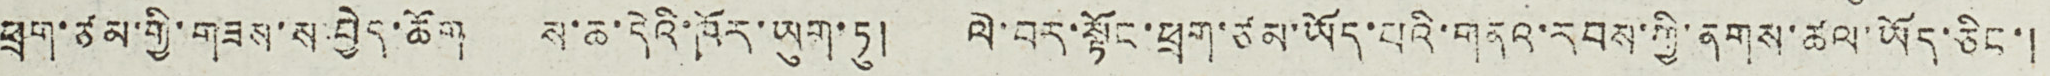ཕྲག་ཙམ་གྱི་གཟས་ས་བྱེད་ཆོག ས་ཆ་དེའི་ཁོར་ཡུག་ཏུ། ལེ་བར་སྟོང་ཕྲག་ཙམ་ཡོད་པའི་གནའ་རབས་ཀྱི་ནགས་ཚལ་ཡོད་ཅིང་།
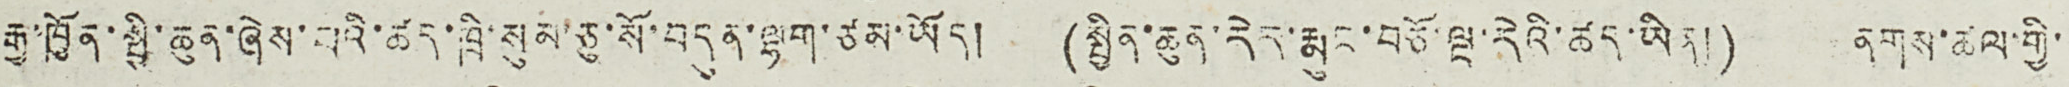རྒྱ་ཁྱོན་སྤྱི་ཆུན་ཞེས་པའི་ཚད་ཁྲི་སུམ་ཅུ་སོ་བདུན་ལྷག་ཙམ་ཡོད། (སྤྱིན་ཆུན་རེར་རྨུང་བཅོ་ལྔ་རེའི་ཚད་ཡིན།) ནགས་ཚལ་གྱི་
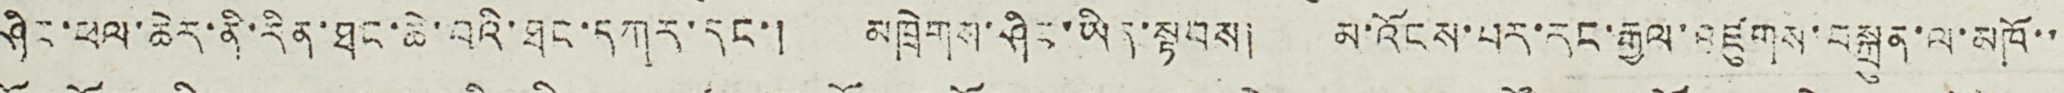ཤིང་ཕལ་ཆེར་ནི་རིན་ཐང་ཆེ་བའི་ཐང་དཀར་དང་། མཁྲེགས་ཤིང་ཡིན་སྟབས། མ་འོངས་པར་རང་རྒྱལ་འཛུགས་བསྐྲུན་ལ་མཁོ་་
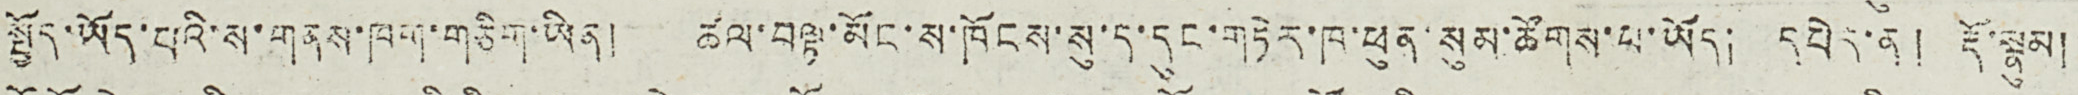སྤྱོད་ཡོད་པའི་ས་གནས་ཁག་གཅིག་ཡིན། ཚལ་བལྟ་མོང་ས་ཁོངས་སུ་ད་དུང་གཏེར་ཁ་ཕུན་སུམ་ཚོགས་པ་ཡོད། དཔེར་ན། རྡོ་སྣུམ།
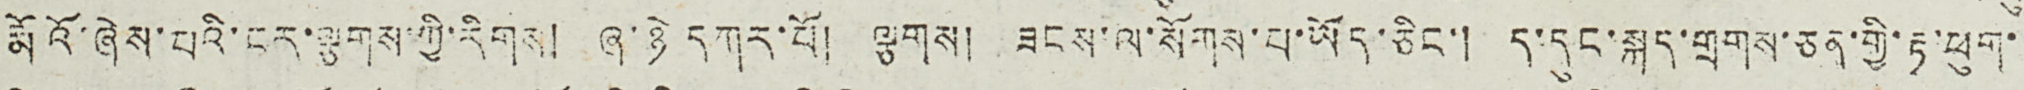རྨོའོ་ཞེས་པའི་ངར་ལྕགས་ཀྱི་རིགས། ཞ་ཉེ དཀར་པོ། ལྕགས། ཟངས་ལ་སོགས་པ་ཡོད་ཅིང་། ད་དུང་སྐད་གྲགས་ཅན་གྱི་རྟ་ཕུག་
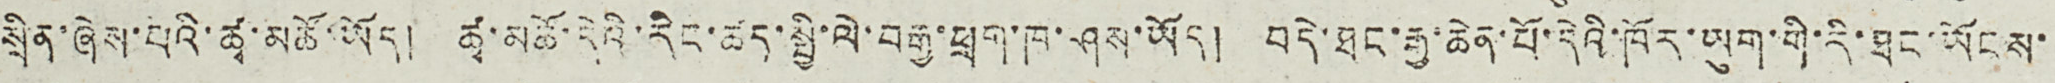སྲིན་ཞེས་པའི་ཚྭ་མཚོ་ཡོད། ཚྭ་མཆོ་དེའི་རིང་ཚད་སྤྱི་ལེ་བརྒྱ་ཕྲག་ཁ་ཤས་ཡོད། བདེ་ཐང་རྒྱ་ཆེན་པོ་དེའི་ཁོར་ཡུག་གི་རི་ཐང་ཡོངས་
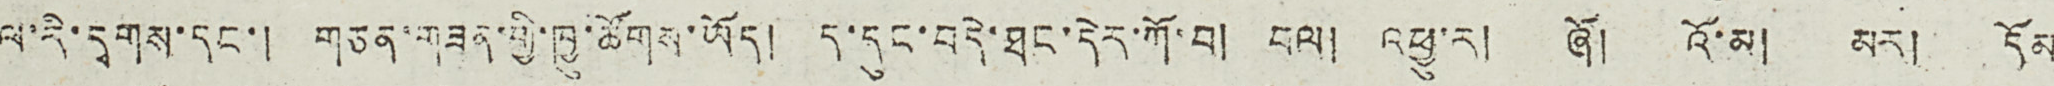ལ་རི་དྭགས་དང་། གཅན་གཟན་གྱི་ཁྱུ་ཚོགས་ཡོད། ད་དུང་བདེ་ཐང་དེར་ཀོ་བ། བལ། འཕྱུ་ར། ཞོ། འོ་མ། མར། དོམ
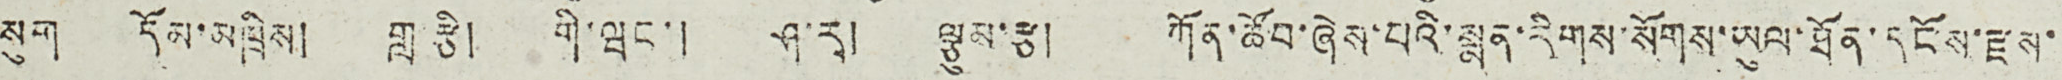སུག དོམ་མཁྲིས། གླ རྩི། གི་ཝང་། ཤ་རྭ། ལྕུམ་རྩ། ཀོན་ཚོབ་ཞེས་པའི་སྨན་རིགས་སོགས་ཡུལ་ཐོན་དངོས་རྫས་
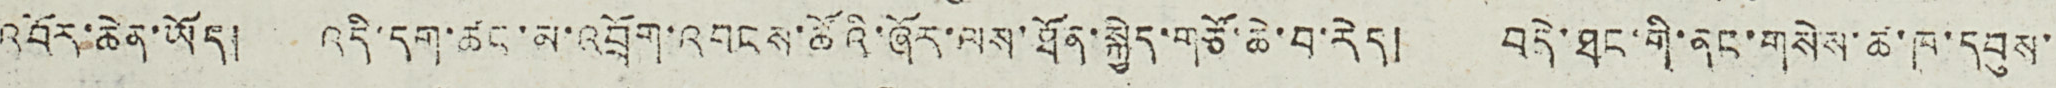འབོར་ཆེན་ཡོད། འདི་དག་ཚང་མ་འབྲོག་འབངས་ཚོའི་ཞོར་ལས་ཐོན་སྐྱེད་གཙོ་ཆེ་བ་རེད། བདེ་ཐང་གི་ནང་གསེས་ཚ་ཁ་དབུས་
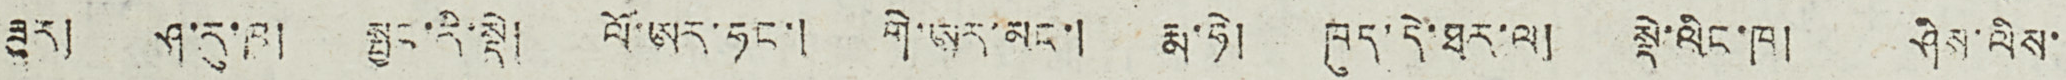ཟུར། ཤ་རུ་ཁ། སྦྱང་རི་སྡེ། ལོ་ཨར་ཧང་། གི་ཨར་མང་། རྨ་ཧེ། ཁུད་དེ་ཐར་ལ། སྡེ་ལིང་ཁ། ཤིས་ལིས་
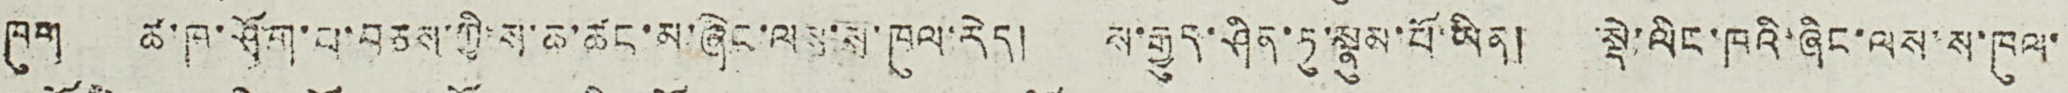ཁུག ཚ་ཁ་ཤོག་པ་བཅས་ཀྱི་ས་ཆ་ཚང་མ་ཞིང་ལས་ས་ཁུལ་རེད། ས་རྒྱུད་ཤིན་ཏུ་སྣུམ་པོ་ཡིན། སྡེ་ལིང་ཁའི་ཞིང་ལས་ས་ཁུལ་
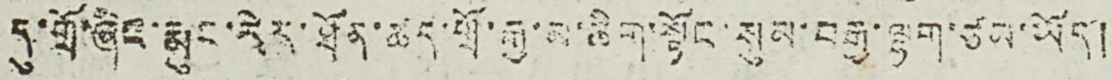དུ་གྲོ་ཞིང་རྨུང་རེར་ཐོན་ཚད་གྲོ་རྐྱ་མ་ཆིག་སྟོང་སུམ་བརྒྱ་ལྷག་ཙམ་ཡོད།
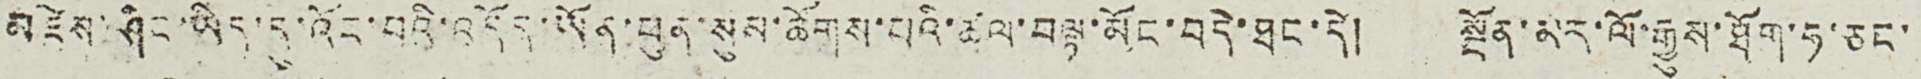མཛེས་ཤིང་ཡིད་དུ་འོང་བའི་འདོད་ཡོན་ཕུན་སུམ་ཚོགས་པའི་ཚལ་བལྟ་མོང་བདེ་ཐང་དེ། སྔོན་མར་ལོ་རྒྱུས་ཐོག་ཧ་ཅང་
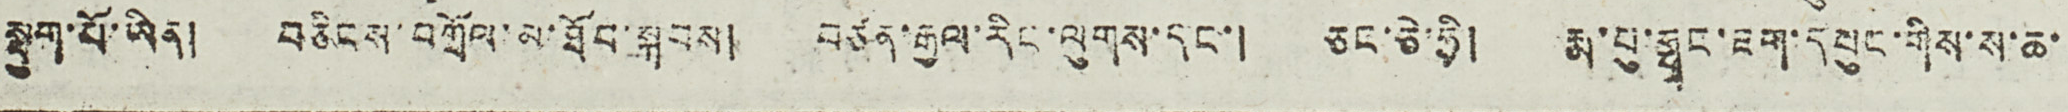སྡུག་པོ་ཡིན། བཅིངས་བཀྲོལ་མ་ཐོབ་སྐབས། བཙན་རྒྱལ་རིང་ལུགས་དང་། ཅང་ཅེ་ཧྲི། རྨ་ཕུ་ཧྥཱང་ཇག་དཔུང་གིས་ས་ཆ་
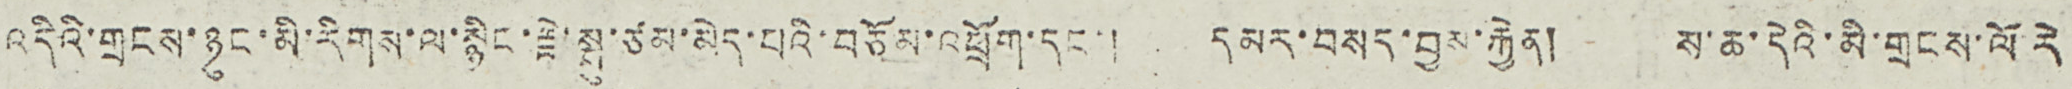འདིའི་གྲངས་ཉུང་མི་རིགས་ལ་སྙིང་རྗེ་སྤུ་ཙམ་མེད་པའི་བཅོམ་འཕྲོག་དང་། དམར་བསད་བྱས་རྐྱེན། ས་ཆ་དེའི་མི་གྲངས་ལོ རེ
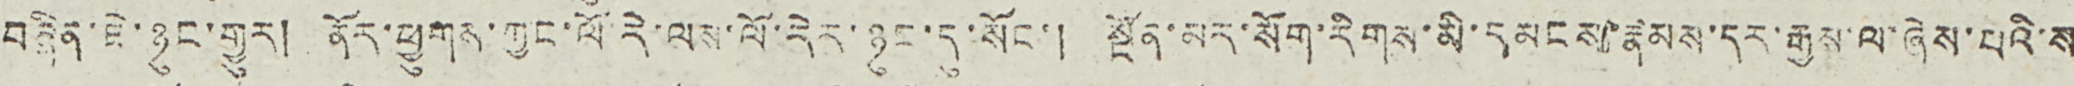བཞིན་ཇེ་ཉུང་གྱུར། ནོར་ཕྱུགས་ཀྱང་ལོ་རེ་ལས་ལོ་རེར་ཉུང་དུ་སོང་། སྔོན་མར་སོག་རིགས་མི་དམངས་རྣམས་དར་རྒྱས་ལ་ཞེས་པའི་ས
